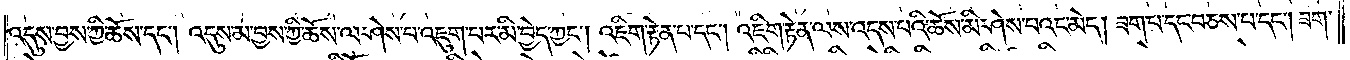འདུས་བྱས་ཀྱི་ཆོས་དང༌། འདུས་མ་བྱས་ཀྱི་ཆོས་ལ་ཤེས་པ་འཇུག་པར་མི་བྱེད་ཀྱང༌། འཇིག་རྟེན་པ་དང༌། འཇིག་རྟེན་ལས་འདས་པའི་ཆོས་མི་ཤེས་པའང་མེད། ཟག་པ་དང་བཅས་པ་དང༌། ཟག་
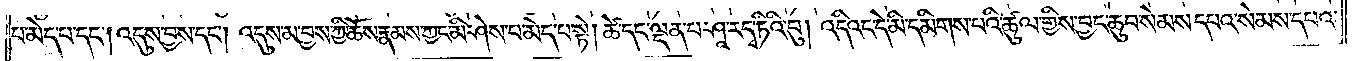པ་མེད་པ་དང༌། འདུས་བྱས་དང༌། འདུས་མ་བྱས་ཀྱི་ཆོས་རྣམས་ཀྱང་མི་ཤེས་པ་མེད་པ་སྟེ། ཚེ་དང་ལྡན་པ་ཤཱ་རདྭ་ཏིའི་བུ། འདིའང་དེ་མི་དམིགས་པའི་ཚུལ་གྱིས་བྱང་ཆུབ་སེམས་དཔའ་སེམས་དཔའ་
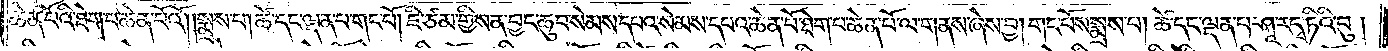ཆེན་པོའི་ཐེག་པ་ཆེན་པོའོ། །སྨྲས་པ། ཚེ་དང་ལྡན་པ་གང་པོ། ཇི་ཙམ་གྱིས་ན་བྱང་ཆུབ་སེམས་དཔའ་སེམས་དཔའ་ཆེན་པོ་ཐེག་པ་ཆེན་པོ་ལ་གནས་ཞེས་བྱ། གང་པོས་སྨྲས་པ། ཚེ་དང་ལྡན་པ་ཤཱ་རདྭ་ཏིའི་བུ།
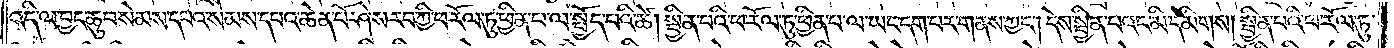འདི་ལ་བྱང་ཆུབ་སེམས་དཔའ་སེམས་དཔའ་ཆེན་པོ་ཤེས་རབ་ཀྱི་ཕ་རོལ་ཏུ་ཕྱིན་པ་ལ་སྤྱོད་པའི་ཚེ། སྦྱིན་པའི་ཕ་རོལ་ཏུ་ཕྱིན་པ་ལ་ཡང་དག་པར་གནས་ཀྱང༌། དེས་སྦྱིན་པའང་མི་དམིགས། སྦྱིན་པའི་ཕ་རོལ་ཏུ་
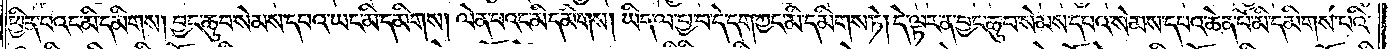ཕྱིན་པའང་མི་དམིགས་བྱང་ཆུབ་སེམས་དཔའ་ཡང་མི་དམིགས། ལེན་པའང་མི་དམིགས། ཡིད་ལ་བྱ་བ་དེ་དག་ཀྱང་མི་དམིགས་ཏེ། དེ་ལྟར་ན་བྱང་ཆུབ་སེམས་དཔའ་སེམས་དཔའ་ཆེན་པོ་མི་དམིགས་པའི་
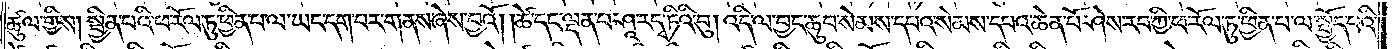ཚུལ་གྱིས། སྦྱིན་པའི་ཕ་རོལ་ཏུ་ཕྱིན་པ་ལ་ཡང་དག་པར་གནས་ཞེས་བྱའོ། །ཚེ་དང་ལྡན་པ་ཤཱ་རདྭ་ཏིའི་བུ། འདི་ལ་བྱང་ཆུབ་སེམས་དཔའ་སེམས་དཔའ་ཆེན་པོ་ཤེས་རབ་ཀྱི་ཕ་རོལ་ཏུ་ཕྱིན་པ་ལ་སྤྱོད་པའི་
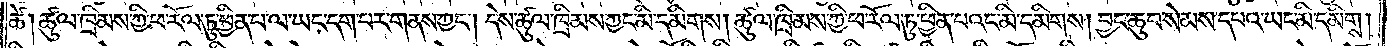ཚེ། ཚུལ་ཁྲིམས་ཀྱི་ཕ་རོལ་ཏུ་ཕྱིན་པ་ལ་ཡང་དག་པར་གནས་ཀྱང༌། དེས་ཚུལ་ཁྲིམས་ཀྱང་མི་དམིགས། ཚུལ་ཁྲིམས་ཀྱི་ཕ་རོལ་ཏུ་ཕྱིན་པའང་མི་དམིགས། བྱང་ཆུབ་སེམས་དཔའ་ཡང་མི་དམིགས།
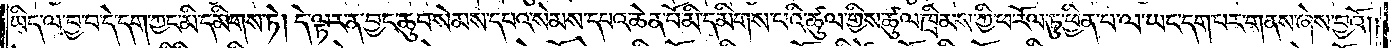ཡིད་ལ་བྱ་བ་དེ་དག་ཀྱང་མི་དམིགས་ཏེ། དེ་ལྟར་ན་བྱང་ཆུབ་སེམས་དཔའ་སེམས་དཔའ་ཆེན་པོ་མི་དམིགས་པའི་ཚུལ་གྱིས་ཚུལ་ཁྲིམས་ཀྱི་ཕ་རོལ་ཏུ་ཕྱིན་པ་ལ་ཡང་དག་པར་གནས་ཞེས་བྱའོ། །
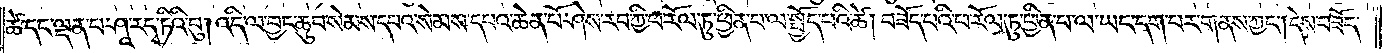ཚེ་དང་ལྡན་པ་ཤཱ་རདྭ་ཏིའི་བུ། འདི་ལ་བྱང་ཆུབ་སེམས་དཔའ་སེམས་དཔའ་ཆེན་པོ་ཤེས་རབ་ཀྱི་ཕ་རོལ་ཏུ་ཕྱིན་པ་ལ་སྤྱོད་པའི་ཚེ། བཟོད་པའི་ཕ་རོལ་ཏུ་ཕྱིན་པ་ལ་ཡང་དག་པར་གནས་ཀྱང༌། དེས་བཟོད་
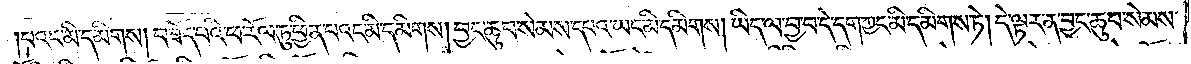པའང་མི་དམིགས། བཟོད་པའི་ཕ་རོལ་ཏུ་ཕྱིན་པའང་མི་དམིགས། བྱང་ཆུབ་སེམས་དཔའ་ཡང་མི་དམིགས། ཡིད་ལ་བྱ་བ་དེ་དག་ཀྱང་མི་དམིགས་ཏེ། དེ་ལྟར་ན་བྱང་ཆུབ་སེམས་
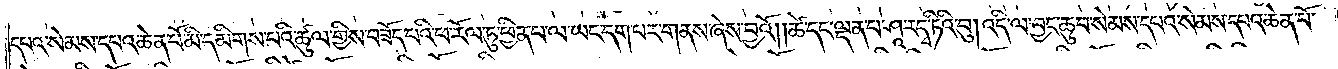དཔའ་སེམས་དཔའ་ཆེན་པོ་མི་དམིགས་པའི་ཚུལ་གྱིས་བཟོད་པའི་ཕ་རོལ་ཏུ་ཕྱིན་པ་ལ་ཡང་དག་པར་གནས་ཞེས་བྱའོ། །ཚེ་དང་ལྡན་པ་ཤཱ་རདྭ་ཏིའི་བུ། འདི་ལ་བྱང་ཆུབ་སེམས་དཔའ་སེམས་དཔའ་ཆེན་པོ་
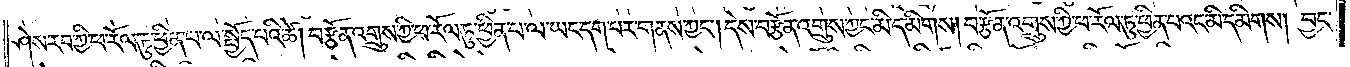ཤེས་རབ་ཀྱི་ཕ་རོལ་ཏུ་ཕྱིན་པ་ལ་སྤྱོད་པའི་ཚེ། བརྩོན་འགྲུས་ཀྱི་ཕ་རོལ་ཏུ་ཕྱིན་པ་ལ་ཡང་དག་པར་གནས་ཀྱང༌། དེས་བརྩོན་འགྲུས་ཀྱང་མི་དམིགས། བརྩོན་འགྲུས་ཀྱི་ཕ་རོལ་ཏུ་ཕྱིན་པའང་མི་དམིགས། བྱང་
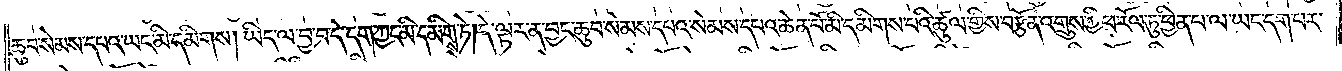ཆུབ་སེམས་དཔའ་ཡང་མི་དམིགས། ཡིད་ལ་བྱ་བ་དེ་དག་ཀྱང་མི་དམིགས་ཏེ། དེ་ལྟར་ན་བྱང་ཆུབ་སེམས་དཔའ་སེམས་དཔའ་ཆེན་པོ་མི་དམིགས་པའི་ཚུལ་གྱིས་བརྩོན་འགྲུས་ཀྱི་ཕ་རོལ་ཏུ་ཕྱིན་པ་ལ་ཡང་དག་པར་
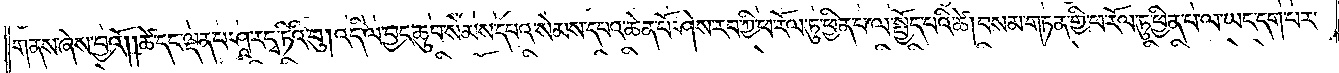གནས་ཞེས་བྱའོ། །ཚེ་དང་ལྡན་པ་ཤཱ་རདྭ་ཏིའི་བུ། འདི་ལ་བྱང་ཆུབ་སེམས་དཔའ་སེམས་དཔའ་ཆེན་པོ་ཤེས་རབ་ཀྱི་ཕ་རོལ་ཏུ་ཕྱིན་པ་ལ་སྤྱོད་པའི་ཚེ། བསམ་གཏན་གྱི་ཕ་རོལ་ཏུ་ཕྱིན་པ་ལ་ཡང་དག་པར་
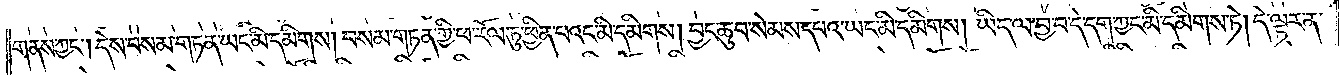གནས་ཀྱང༌། དེས་བསམ་གཏན་ཡང་མི་དམིགས། བསམ་གཏན་གྱི་ཕ་རོལ་ཏུ་ཕྱིན་པའང་མི་དམིགས། བྱང་ཆུབ་སེམས་དཔའ་ཡང་མི་དམིགས། ཡིད་ལ་བྱ་བ་དེ་དག་ཀྱང་མི་དམིགས་ཏེ། དེ་ལྟར་ན་
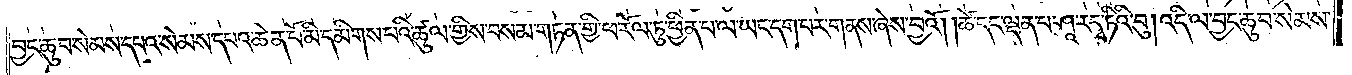བྱང་ཆུབ་སེམས་དཔའ་སེམས་དཔའ་ཆེན་པོ་མི་དམིགས་པའི་ཚུལ་གྱིས་བསམ་གཏན་གྱི་ཕ་རོལ་ཏུ་ཕྱིན་པ་ལ་ཡང་དག་པར་གནས་ཞེས་བྱའོ། ཚེ་དང་ལྡན་པ་ཤཱ་རདྭ་ཏིའི་བུ། འདི་ལ་བྱང་ཆུབ་སེམས་
